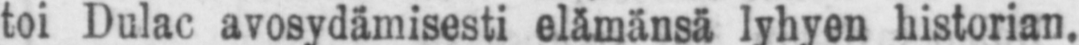toi Dulac avosydämisesti elämänsä lyhyen historian.
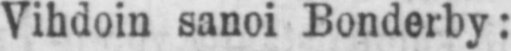Vihdoin sanoi Bonderby:
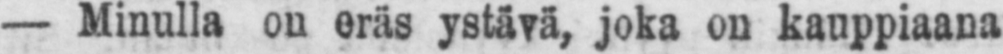— Minulla on eräs ystävä, joka on kauppiaana
